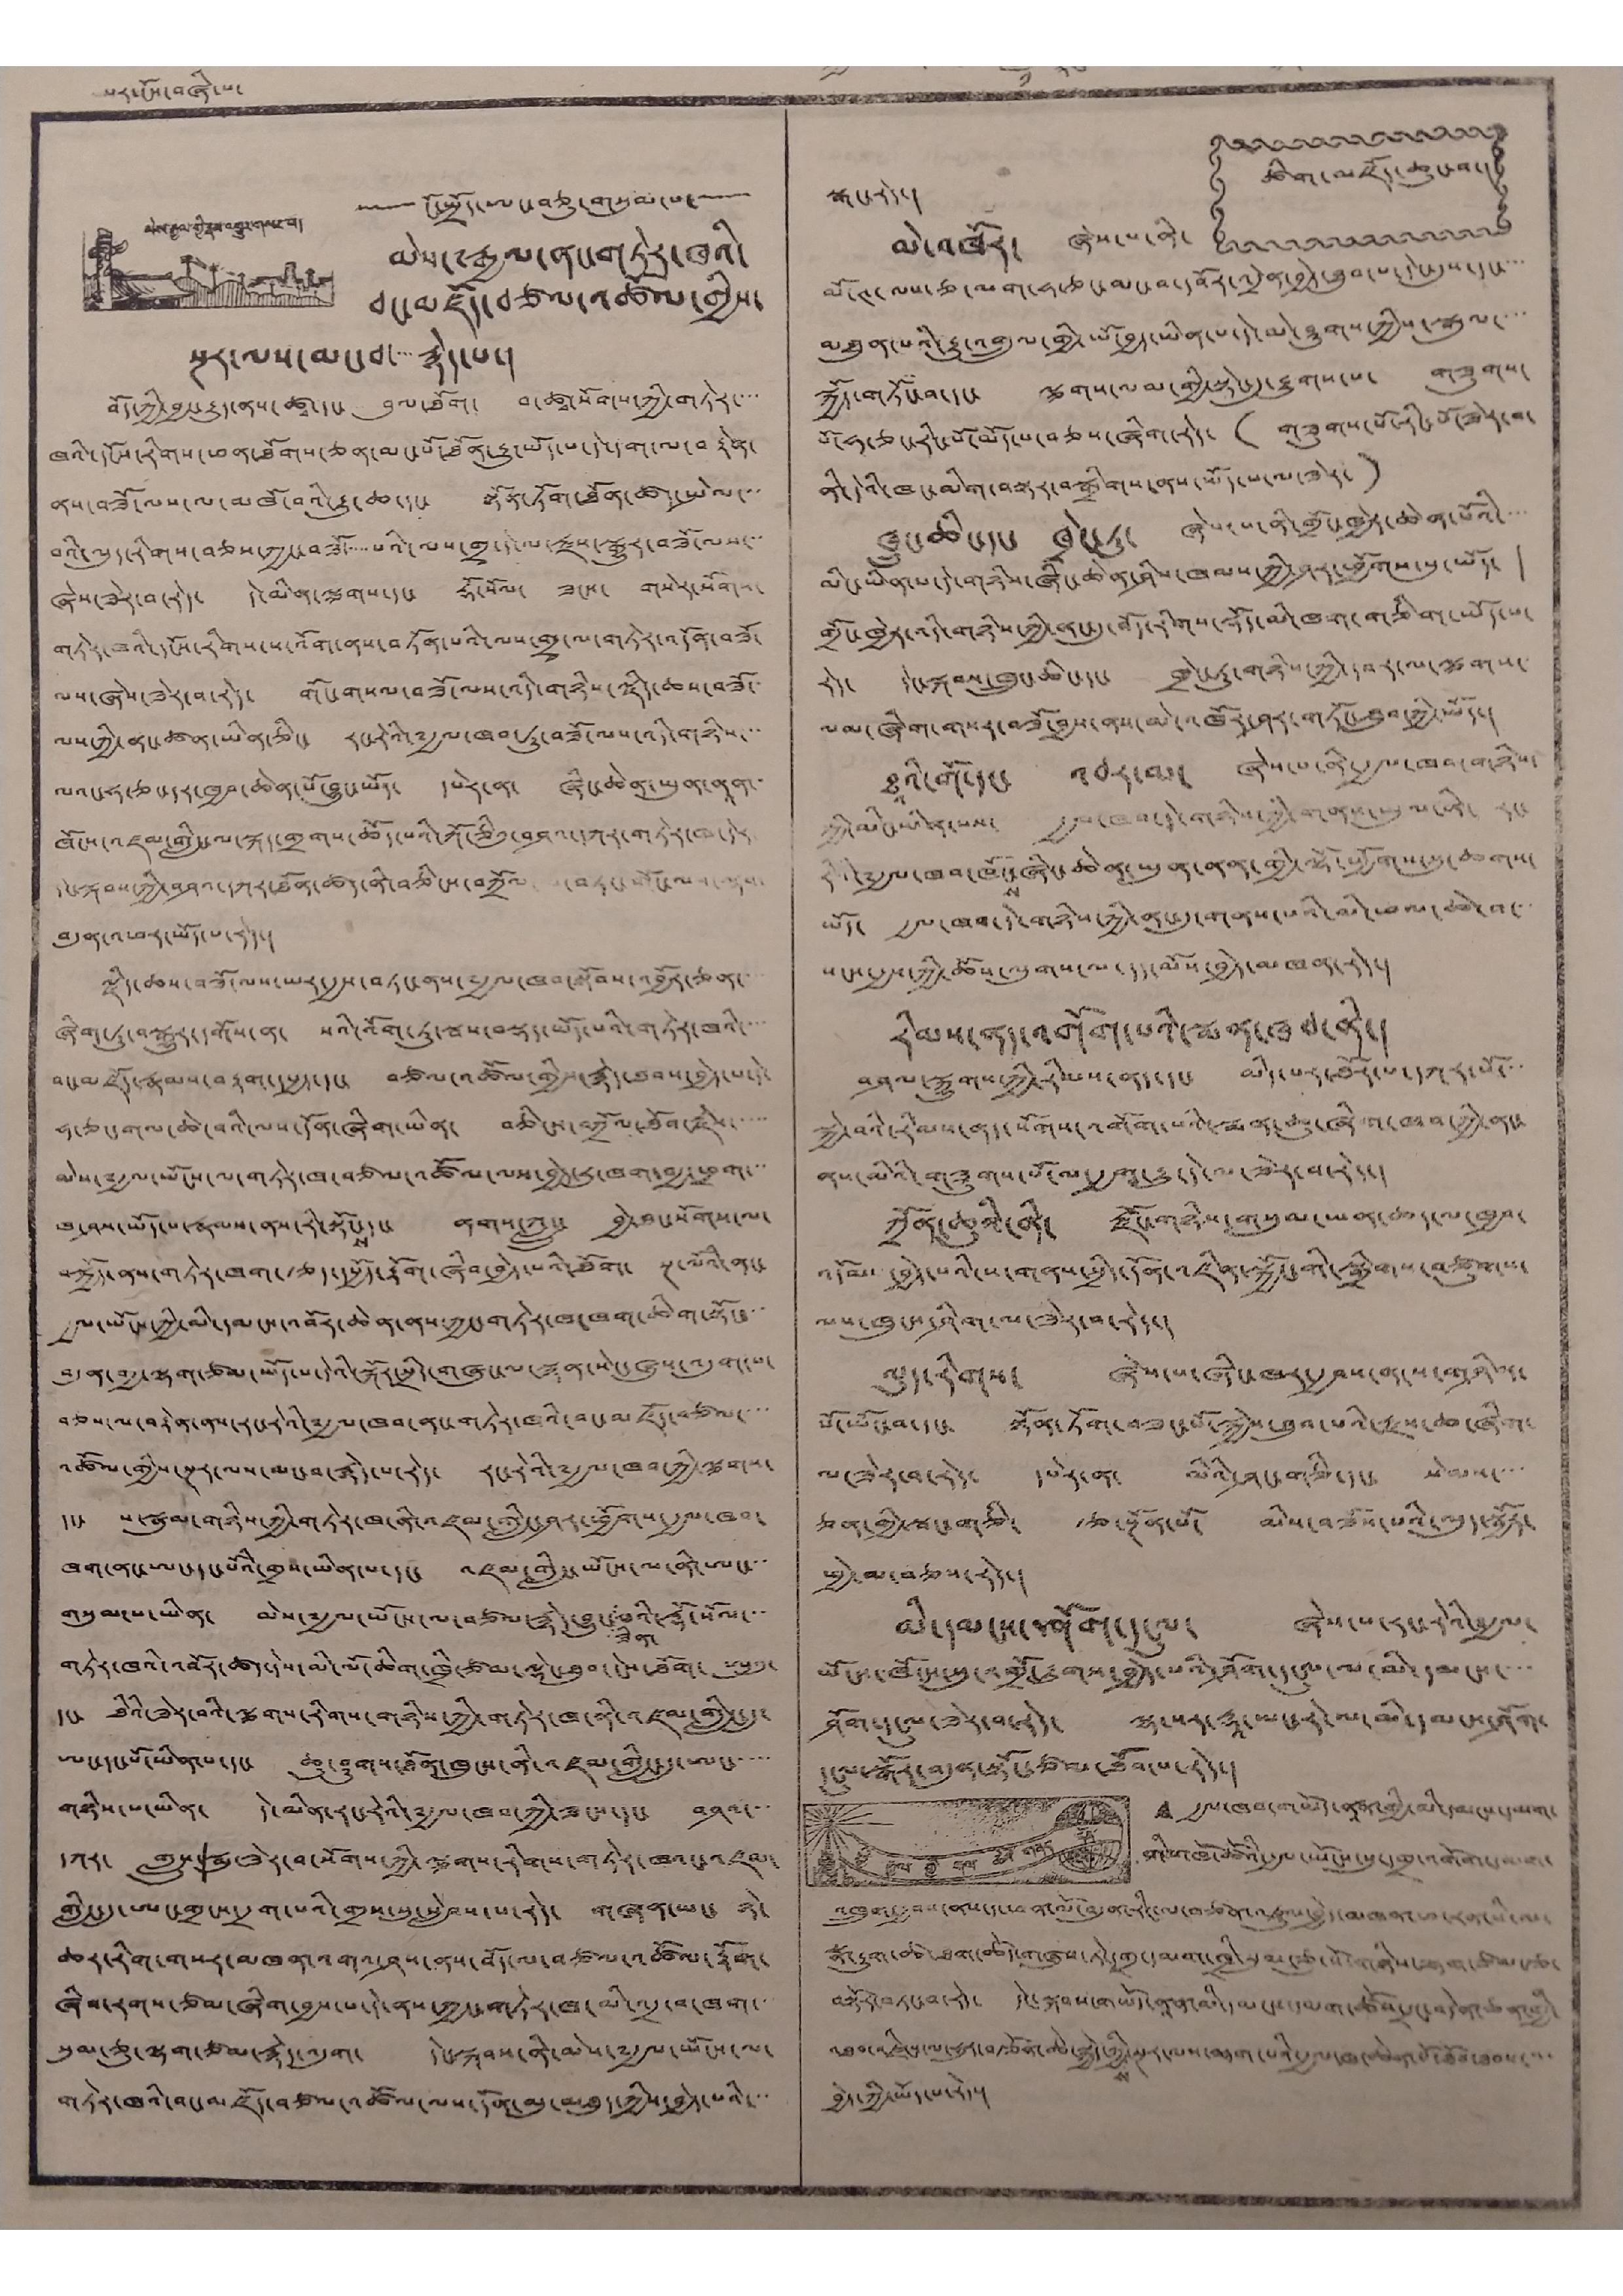པར་ངོས་བཞི་པ་
མེས་རྒྱལ་གྱི་རྣམ་འགྱུར་གསར་པ།
ངོ་སྤྲོད་ཨང་བཅུ་གསུམ་པ་
མེས་༸རྒྱལ་ནང་གཏེར་ཁའི་
བང་མཛོད་བཙལ་འཚོལ་གྱིས་
སྔར་ལས་མང་བ་་་་རྙེད་པ་།
བོད་ཀྱི་བྱ་རྒྱུད་ནས་ཚྭ་དང་ བུལ་ཐོག་ བ་ཚྭ་སོགས་ཀྱི་གཏེར་་་་
ཁའི་དངོས་རིགས་ཕན་ཐོགས་ཅན་མང་པོ་ཐོན་རྒྱུ་ཡོད་པ་དེ་དག་ལ་བརྟེན་
ནས་བཟོ་ལས་མཁོ་བའི་རྒྱུ་ཆ་དང་ སྟོན་ཏོག་ཐོན་ཚད་སྤེལ་་་
བའི་ལུད་རིགས་བཅས་ཀྱང་བཟོ་་་་་པའི་ལས་གྲྭ་དེ་ལ་རྫས་སྒྱུར་བཟོ་ལས་་་
ཞེས་ཟེར་བ་རེད་ དེ་མིན་ལྕགས་དང་ རྡོ་སོལ་ ཟངས་ གསེར་སོགས་
གཏེར་ཟའི་དངོས་རིགས་ས་འོག་ནས་བཏོན་པའི་ལས་གྲྭ་ལ་གཏེར་འདོན་བཟོ་
ལས་ཞེས་ཟེར་བ་རེད་ གོང་གསལ་བཟོ་ལས་འདི་གཉིས་ལྗིད་ཆས་བཟོ་་
ལས་ཀྱི་ནང་ཚན་ཡིན་ཅིང་ རང་རེའི་༸རྒྱལ་ཁབ་ཏུ་བཟོ་ལས་འདི་གཉིས་་་
ལའང་ཧ་ཅང་དར་ཁྱབ་ཆེན་པོ་བྱུང་ཡོད་ དཔེར་ན་ ཞིང་ཆེན་ཡུན་ནཱན་་
ཁོངས་འཛམ་གླིང་ལ་སྐད་གྲགས་ཆོད་པའི་ཀོ་ཅིའུ་བཤའ་དཀར་གཏེར་ཁ་དེར་
དེང་སྐབས་ཀྱི་བཤའ་དཀར་ཐོན་ཚད་ནི་བཅིངས་བཀྲོལ་ བཏང་གོང་ལག་ལྟས་
བདུན་འཕར་ཡོད་པ་རེད་།
ལྗིད་ཆས་བཟོ་ལས་ཡར་རྒྱས་བཏང་ནས་༸རྒྱལ་ཁབ་སྟོབས་འབྱོར་ཅན་་
ཞིག་ཏུ་བསྒྱུར་དགོས་ན་ སའི་འོག་ཏུ་སྦས་བསྡད་ཡོད་པའི་གཏེར་ཁའི་་་་
བང་མཛོད་རྣམས་བརྟག་དཔྱད་དང་ བཙལ་འཚོལ་གྱིས་རྙེད་ཐུབས་བྱེད་པ་དེ་
ཧ་ཅང་གལ་ཆེ་བའི་ལས་དོན་ཞིག་ཡིན་ བཅིངས་བཀྲོལ་ཐོབ་རྗེས་་་་་
མེས་༸རྒྱལ་ཡོངས་ལ་གཏེར་ཁ་བཙལ་འཚོལ་ལས་བྱེད་རུ་ཁག་བརྒྱ་ཕྲག་་་
ཁ་ཤས་ཡོད་པ་རྣམས་ནས་རི་སྟོང་དང་ ནགས་ཀླུ་ བྱེ་བང་སོགས་ལ་
ས
བསྐྱོད་ནས་གཏེར་ཁག་རྩད་དཔྱོད་རྟོག་ཞིབ་བྱེད་པའི་ཐོག་ སྔ་ལོའི་ནང་
རྒྱལ་ཡོངས་ཀྱི་མི་དམངས་འབོར་ཆེན་ནས་ཀྱང་གཏེར་ཁ་ཁག་ཆིག་སྟོང་་་
བདུན་བརྒྱ་ལྷག་ཙམ་ཡོད་པ་དེའི་སྐོར་སྲིད་གཞུང་ལ་སྙན་སེང་ཞུས་འདུག་པ་
བཅས་ལ་བརྟེན་ནས་རང་རེའི་༸རྒྱལ་ཁབ་ནང་གཏེར་ཁའི་བང་མཛོད་བཙལ་་་་
འཚོལ་གྱིས་སྔར་ལས་མང་བ་རྙེད་པ་རེད་ རང་རེའི་༸རྒྱལ་ཁབ་ཀྱི་ལྕགས་
དང་ ས་སྣུམ་གཉིས་ཀྱི་གཏེར་ཁ་ནི་འཛམ་གླིང་ཤར་ཕྱོགས་རྒྱལ་ཁབ་
ཁག་ནང་ཨང་དང་པོའི་གྲས་ཡིན་པ་དང་ འཛམ་གླིང་ཡོངས་ལ་ནི་ཨང་་་
གསུམ་པ་ཡིན་ མེས་༸རྒྱལ་ཡོངས་ལ་བཙལ་རྙེད་བྱུང་པའི་རྡོ་སོལ་་་
ཟིན་
གཏེར་ཁའི་འབོར་ཚད་དེས་མི་ལོ་ཆིག་ཁྲི་ཙམ་ལྡེང་ཐུབ་ངེས་ཐོག་ ཨུའུ་
དང་ ཐིའི་ཟེར་བའི་ལྕགས་རིགས་གཉིས་ཀྱི་གཏེར་ཁ་ལྟི་འཛམ་གླིང་དུ་
ཨང་དང་པོ་ཡིན་པ་དང་ ཆུ་ཤུགས་ཐོན་ཁུངས་ནི་འཛམ་གླིང་དུ་ཨང་་་་་
གཉིས་པ་ཡིན་ དེ་མིན་རང་རེའི་༸རྒྱལ་ཁབ་ཀྱི་ཟངས་དང་ བཤའ་་་
དཀར་ གླུས་སྨུ་ཟེར་བ་སོགས་ཀྱི་ལྕགས་རིགས་གཏེར་ཁའང་འཛམ་
གླིང་དུ་ཨང་གྲངས་དྲག་པའི་གྲས་སུ་སླེབས་ས་རེད་ གཞན་ཡང་ ཉེ་
ཆར་རིག་གསར་མཁན་འགའ་ཤས་ནས་བོད་ལ་བཙལ་འཚོལ་རྟོག་
ཞིབ་རགས་ཙམ་ཞིག་བྱས་པ་དེ་ནས་ཀྱང་གཏེར་ཁ་མི་འདྲ་བ་ཁག་་
སུམ་ཅུ་ལྷག་ཙམ་རྙེད་འདུག་ དེང་སྐབས་ནི་མེས་༸རྒྱལ་ཡོངས་ལ་
གཏེར་ཁའི་བང་མཛོད་བཙལ་འཚོལ་ལས་དོན་མུ་མཐུད་ཀྱིས་བྱེད་པའི་་་
ཚིག་མཛོད་ཆུང་བ་།
སྒང་རེད་།
མེ་འཁོར་ ཞེས་པ་ནི་
མོ་ཊ་ལས་ཅ་ལག་ཧ་ཅང་མང་བ་དབོར་འདྲེན་བྱེད་ཐུབ་པ་དེང་དུས་དང་་་་
མཐུན་པའི་རྒྱུ་འགྲུལ་གྱི་ཡོ་བྱད་ཡིན་པ་དེ་མེ་ཤུགས་ཀྱིས་སྒུལ་་་་
སྐྱོད་གཏོང་བ་དང་ ལྕགས་ལམ་གྱི་སྟེང་དུ་རྒྱུགས་པ་ གཟུགས་
པོ་ཧ་ཅང་རིང་པོ་ཡོད་པ་བཅས་ཞིག་རེད་ ་(གཟུགས་པོ་རིང་པོ་ཟེར་བ་
ནི་དེའི་ཁང་མིག་བསྟར་བསྒྲིགས་ནས་ཡོད་པ་ལ་ཟེར་)
ཁྲུང་ཆིང་དང་ ཁྲེང་ཏུ་ ཞེས་པ་ནི་གྲོང་ཁྱེར་ཆེན་པོའི་་་་
མིང་ཡིན་པ་དེ་གཉིས་ཞིང་ཆེན་ཤིས་ཁམས་ཀྱི་ཤར་ཕྱོགས་སུ་ཡོད་ །
གྲོང་ཁྱེར་འདི་གཉིས་ཀྱི་ནང་དུ་བོད་རིགས་སྡོད་མི་ཁག་གཅིག་ཡོད་པ་
རེད་ དེང་སྐབས་ཁྲུང་ཆིང་དང་ ཁྲེང་ཏུ་གཉིས་ཀྱི་བར་ལ་ལྕགས་
ལམ་ཞིག་གསར་བཟོ་བྱས་ནས་མེ་འཁོར་ཤར་གཏོང་ཐུབ་ཀྱི་ཡོད་།
ཐཱའི་གོ་དང་ འབར་མ་ ཞེས་པ་ནི་རྒྱལ་ཁབ་གཉིས་
ཀྱི་མིང་ཡིན་པས་ རྒྱལ་ཁབ་དེ་གཉིས་ཀྱི་གནས་ཡུལ་ནི་ རང་
རེའི་༸རྒྱལ་ཁབ་ཁོང་ཞིང་ཆེན་ཡུན་ནན་གྱི་ལྷོ་ཕྱོགས་སུ་ཆགས་
ས
ཡོད་ རྒྱལ་ཁབ་དེ་གཉིས་ཀྱི་ནང་དུ་གནས་པའི་མི་ཕལ་ཆེ་བ་་
སང་རྒྱས་ཀྱི་ཆོས་ལུགས་ལ་དད་མོས་བྱེད་མཁན་རེད་།
རིམས་ནད་འགོག་པའི་སྨན་ཁབ་ནི་།
བཤལ་སྐྱུགས་ཀྱི་རིམས་ནད་དང་ མིད་པར་ཐོར་པ་དཀར་པོ་་་
སྐྱེ་བའི་རིམས་ནད་སོགས་འགོག་པའི་སྨན་ཆུ་ཞིག་ཁབ་ཀྱི་ནང་
ནས་མིའི་གཟུགས་པོ་ལ་རྒྱག་རྒྱུ་དེ་ལ་ཟེར་པ་རེད་།
ཀྲོན་ཆུའི་ནི་ རྫོང་གཉིས་གསུམ་ལ་ཡན་ཆད་ལ་ཁྱབ་
འདོམ་ བྱེད་པའི་ས་གནས་སྲིད་དོན་འཛིན་སྐྱོང་གི་སྒྲིགས་བཙུགས་
ལས་ཁུངས་ཤིག་ལ་ཟེར་བ་རེད་།
ལུད་རིགས་ ཞེས་པ་ཞིང་ཁར་རྒྱབས་བདངས་གཤིར་
པོ་ཡོང་བ་དང་ སྟོན་ཏོག་བཟང་པོ་སྐྱེས་ཐུབ་པའི་རྫས་ཆ་ཞིག་
ལ་ཟེར་བ་རེད་ དཔེར་ན་ མིའི་ཤང་གཅི་དང སེམས་་་་
ཅན་གྱི་སྦང་གཅི རྩ་སྔོན་པོ་ མིས་བཟོས་པའི་ལུད་སྦྱོར་
ཕྱེ་མ་བཅས་རེད་།
མི་དམངས་ཤོག་དངུལ་ ཞེས་པ་རང་རེའི་རྒྱལ་
ཡོངས་ཁོངས་སུ་འགྲོ་རྒྱུགས་བྱེད་པའི་ཤོག་དངུལ་ལ་མི་དམངས་་་་
ཤོག་དངུལ་ཟེར་བ་རེད་ ལྷ་སར་རྡཱ་ཡང་རེ་ལ་མི་དམངས་ཤོག་
དངུལ་སྒོར་བདུན་སྟོང་ཙམ་ཐོབ་པ་རེད་།
ཕྱི་རྒྱལ་གྱི་གལ་ཆེའི་གནད་དོན་
• རྒྱལ་ཁབ་གཡོད་ནཱན་གཡི་མི་དམངས་དམག་
གི་འཁོ་ཚོའི་རྒྱལ་ཡོངས་སུ་དགྲ་འགོག་དམག་
འཁྲུག་རྒྱབས་ནས་ད་ཕན་ལོ་བདུན་རིང་ལ་བཙན་འཛུལ་བྱེད་མཁན་ཕ་རན་སི་ནས་
སྣ་རྒྱུག་ཚ་ཐག་ཆོད་གཞུས་ཏེ་དགྲ་དམག་ཁྲི་སུམ་ཅུ་སོ་གཉིས་ལྷག་ཙམ་རྩ་
བསྟོར་བཏང་བ་རེད་ དེང་སྐབས་གཡོད་ནཱན་མི་དམངས་དམག་ཚོས་དྲང་འདེན་ཅན་གྱི་
འཐབ་འཛིངས་ལ་ཧུར་བརྩོན་ཆེ་སྐྱེད་ཀི་སྔར་ལས་ལྷག་པའི་རྒྱལ་ཁ་ཆེན་པོ་ཐོབ་ཐབས་་་་
ས
བྱེད་ཀྱི་ཡོད་པ་རེད་།
